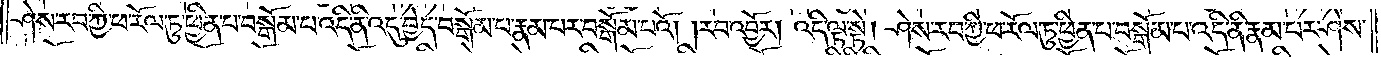ཤེས་རབ་ཀྱི་ཕ་རོལ་ཏུ་ཕྱིན་པ་བསྒོམ་པ་འདི་ནི་འདུ་བྱེད་བསྒོམ་པ་རྣམ་པར་བསྒོམ་པའོ། །རབ་འབྱོར། འདི་ལྟ་སྟེ། ཤེས་རབ་ཀྱི་ཕ་རོལ་ཏུ་ཕྱིན་པ་བསྒོམ་པ་འདི་ནི་རྣམ་པར་ཤེས་
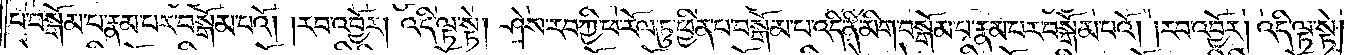པ་བསྒོམ་པ་རྣམ་པར་བསྒོམ་པའོ། །རབ་འབྱོར། འདི་ལྟ་སྟེ། ཤེས་རབ་ཀྱི་ཕ་རོལ་ཏུ་ཕྱིན་པ་བསྒོམ་པ་འདི་ནི་མིག་བསྒོམ་པ་རྣམ་པར་བསྒོམ་པའོ། །རབ་འབྱོར། འདི་ལྟ་སྟེ།
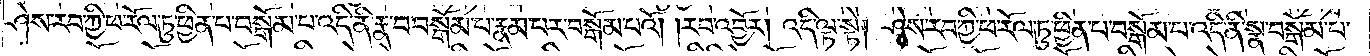ཤེས་རབ་ཀྱི་ཕ་རོལ་ཏུ་ཕྱིན་པ་བསྒོམ་པ་འདི་ནི་རྣ་བ་བསྒོམ་པ་རྣམ་པར་བསྒོམ་པའོ། །རབ་འབྱོར། འདི་ལྟ་སྟེ། ཤེས་རབ་ཀྱི་ཕ་རོལ་ཏུ་ཕྱིན་པ་བསྒོམ་པ་འདི་ནི་སྣ་བསྒོམ་པ་
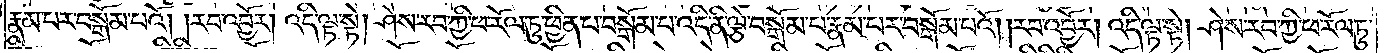རྣམ་པར་བསྒོམ་པའོ། །རབ་འབྱོར། འདི་ལྟ་སྟེ། ཤེས་རབ་ཀྱི་ཕ་རོལ་ཏུ་ཕྱིན་པ་བསྒོམ་པ་འདི་ནི་ལྕེ་བསྒོམ་པ་རྣམ་པར་བསྒོམ་པའོ། །རབ་འབྱོར། འདི་ལྟ་སྟེ། ཤེས་རབ་ཀྱི་ཕ་རོལ་ཏུ་
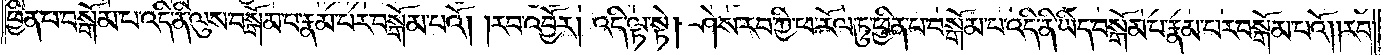ཕྱིན་པ་བསྒོམ་པ་འདི་ནི་ལུས་བསྒོམ་པ་རྣམ་པར་བསྒོམ་པའོ། །རབ་འབྱོར། འདི་ལྟ་སྟེ། ཤེས་རབ་ཀྱི་ཕ་རོལ་ཏུ་ཕྱིན་པ་བསྒོམ་པ་འདི་ནི་ཡིད་བསྒོམ་པ་རྣམ་པར་བསྒོམ་པའོ། །རབ་
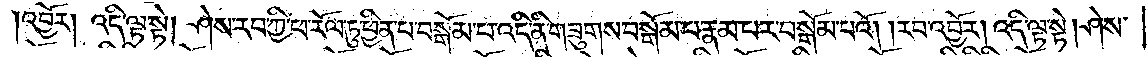འབྱོར། འདི་ལྟ་སྟེ། ཤེས་རབ་ཀྱི་ཕ་རོལ་ཏུ་ཕྱིན་པ་བསྒོམ་པ་འདི་ནི་གཟུགས་བསྒོམ་པ་རྣམ་པར་བསྒོམ་པའོ། །རབ་འབྱོར། འདི་ལྟ་སྟེ། ཤེས་
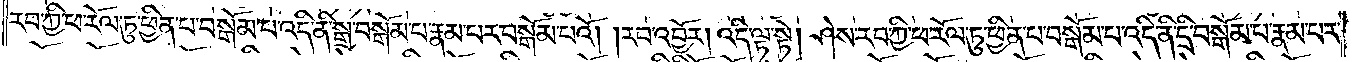རབ་ཀྱི་ཕ་རོལ་ཏུ་ཕྱིན་པ་བསྒོམ་པ་འདི་ནི་སྒྲ་བསྒོམ་པ་རྣམ་པར་བསྒོམ་པའོ། །རབ་འབྱོར། འདི་ལྟ་སྟེ། ཤེས་རབ་ཀྱི་ཕ་རོལ་ཏུ་ཕྱིན་པ་བསྒོམ་པ་འདི་ནི་དྲི་བསྒོམ་པ་རྣམ་པར་
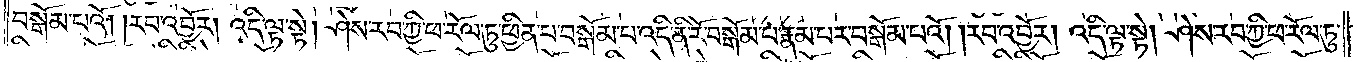བསྒོམ་པའོ། །རབ་འབྱོར། འདི་ལྟ་སྟེ། ཤེས་རབ་ཀྱི་ཕ་རོལ་ཏུ་ཕྱིན་པ་བསྒོམ་པ་འདི་ནི་རོ་བསྒོམ་པ་རྣམ་པར་བསྒོམ་པའོ། །རབ་འབྱོར། འདི་ལྟ་སྟེ། ཤེས་རབ་ཀྱི་ཕ་རོལ་ཏུ་
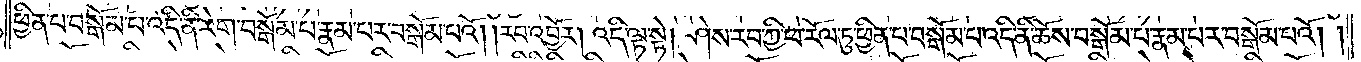ཕྱིན་པ་བསྒོམ་པ་འདི་ནི་རེག་བསྒོམ་པ་རྣམ་པར་བསྒོམ་པའོ། །རབ་འབྱོར། འདི་ལྟ་སྟེ། ཤེས་རབ་ཀྱི་ཕ་རོལ་ཏུ་ཕྱིན་པ་བསྒོམ་པ་འདི་ནི་ཆོས་བསྒོམ་པ་རྣམ་པར་བསྒོམ་པའོ། །
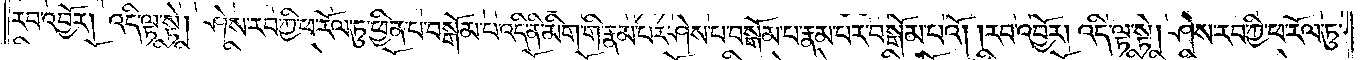རབ་འབྱོར། འདི་ལྟ་སྟེ། ཤེས་རབ་ཀྱི་ཕ་རོལ་ཏུ་ཕྱིན་པ་བསྒོམ་པ་འདི་ནི་མིག་གི་རྣམ་པར་ཤེས་པ་བསྒོམ་པ་རྣམ་པར་བསྒོམ་པའོ། །རབ་འབྱོར། འདི་ལྟ་སྟེ། ཤེས་རབ་ཀྱི་ཕ་རོལ་ཏུ་
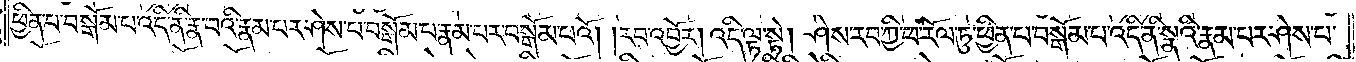ཕྱིན་པ་བསྒོམ་པ་འདི་ནི་རྣ་བའི་རྣམ་པར་ཤེས་པ་བསྒོམ་པ་རྣམ་པར་བསྒོམ་པའོ། །རབ་འབྱོར། འདི་ལྟ་སྟེ། ཤེས་རབ་ཀྱི་ཕ་རོལ་ཏུ་ཕྱིན་པ་བསྒོམ་པ་འདི་ནི་སྣའི་རྣམ་པར་ཤེས་པ་
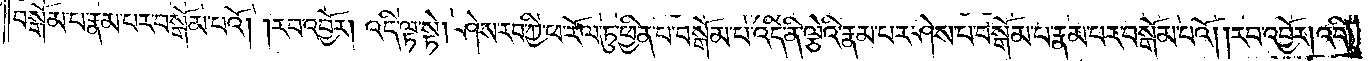བསྒོམ་པ་རྣམ་པར་བསྒོམ་པའོ། །རབ་འབྱོར། འདི་ལྟ་སྟེ། ཤེས་རབ་ཀྱི་ཕ་རོལ་ཏུ་ཕྱིན་པ་བསྒོམ་པ་འདི་ནི་ལྕེའི་རྣམ་པར་ཤེས་པ་བསྒོམ་པ་རྣམ་པར་བསྒོམ་པའོ། །རབ་འབྱོར། འདི་
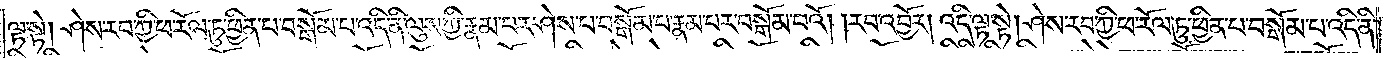ལྟ་སྟེ། ཤེས་རབ་ཀྱི་ཕ་རོལ་ཏུ་ཕྱིན་པ་བསྒོམ་པ་འདི་ནི་ལུས་ཀྱི་རྣམ་པར་ཤེས་པ་བསྒོམ་པ་རྣམ་པར་བསྒོམ་པའོ། །རབ་འབྱོར། འདི་ལྟ་སྟེ། ཤེས་རབ་ཀྱི་ཕ་རོལ་ཏུ་ཕྱིན་པ་བསྒོམ་པ་འདི་ནི་
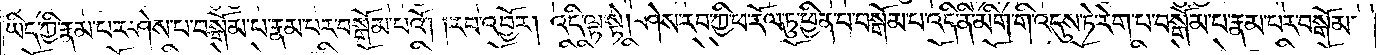ཡིད་ཀྱི་རྣམ་པར་ཤེས་པ་བསྒོམ་པ་རྣམ་པར་བསྒོམ་པའོ། །རབ་འབྱོར། འདི་ལྟ་སྟེ། ཤེས་རབ་ཀྱི་ཕ་རོལ་ཏུ་ཕྱིན་པ་བསྒོམ་པ་འདི་ནི་མིག་གི་འདུས་ཏེ་རེག་པ་བསྒོམ་པ་རྣམ་པར་བསྒོམ་
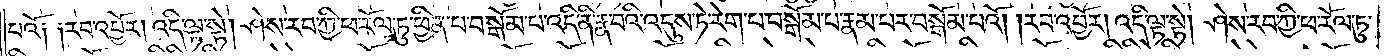པའོ། །རབ་འབྱོར། འདི་ལྟ་སྟེ། ཤེས་རབ་ཀྱི་ཕ་རོལ་ཏུ་ཕྱིན་པ་བསྒོམ་པ་འདི་ནི་རྣ་བའི་འདུས་ཏེ་རེག་པ་བསྒོམ་པ་རྣམ་པར་བསྒོམ་པའོ། །རབ་འབྱོར། འདི་ལྟ་སྟེ། ཤེས་རབ་ཀྱི་ཕ་རོལ་ཏུ་
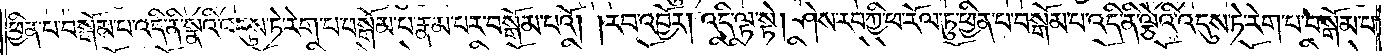ཕྱིན་པ་བསྒོམ་པ་འདི་ནི་སྣའི་འདུས་ཏེ་རེག་པ་བསྒོམ་པ་རྣམ་པར་བསྒོམ་པའོ། །རབ་འབྱོར། འདི་ལྟ་སྟེ། ཤེས་རབ་ཀྱི་ཕ་རོལ་ཏུ་ཕྱིན་པ་བསྒོམ་པ་འདི་ནི་ལྕེའི་འདུས་ཏེ་རེག་པ་བསྒོམ་པ་
